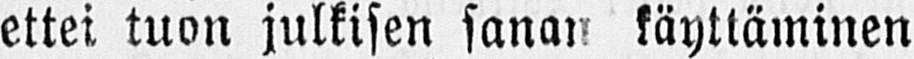ettei tuon julkisen sanan käyttäminen
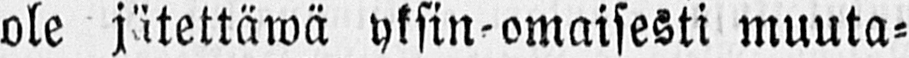ole jätettäwä yksin-omaisesti muuta-
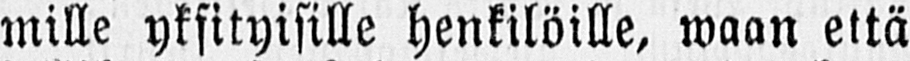mille yksityisille henkilöille, waan että
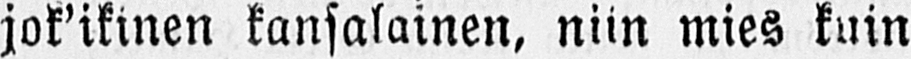jok'ikinen kansalainen, niin mies kuin
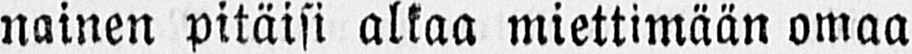nainen pitäisi alkaa miettimään omaa
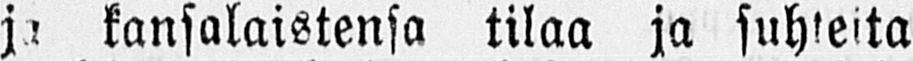ja kansalaistensa tilaa ja suhteita
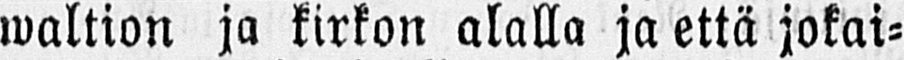waltion ja kirkon alalla ja että jokai-
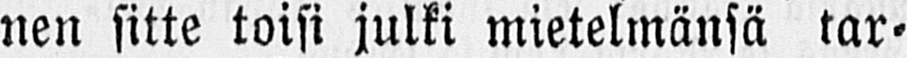nen sitte toisi julki mietelmänsä tar-
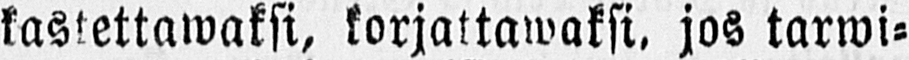kastettawaksi, korjattawaksi, jos tarwi-
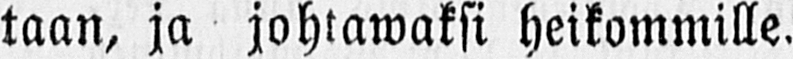taan, ja johtawaksi heikommille.
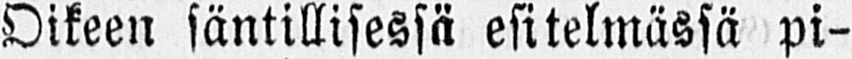Oikeen säntillisessä esitelmässä pi-
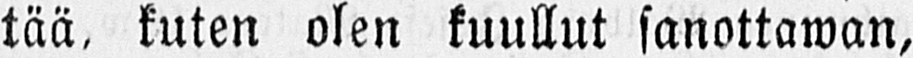tää, kuten olen kuullut sanottawan,
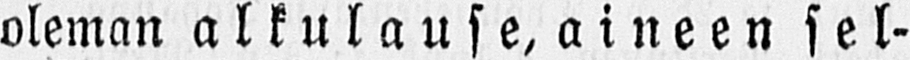oleman alkulause, aineen sel-
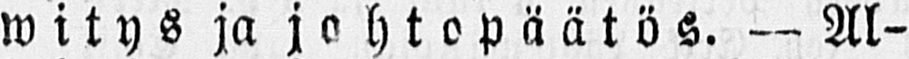witys ja johtopäätös. — Al-
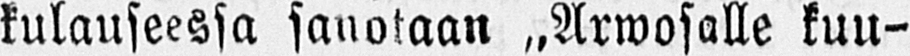kulauseessa sanotaan ˶Arwosalle kuu-
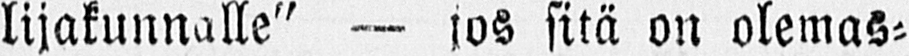lijakunnalle" — jos sitä on olemas-
